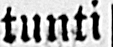tunti
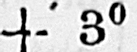+ 3°
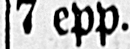7 epp.
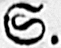S.
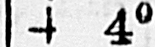+ 4°
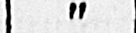"
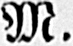M.
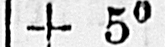+ 5°
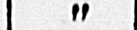"
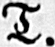T.
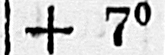+ 7°
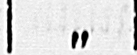"
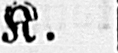K. l
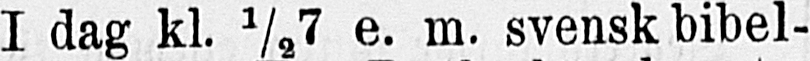I dag k1½.7 e. m. svensk bibel-
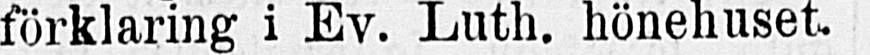förklaring i Ev. Luthl.hönehuset.
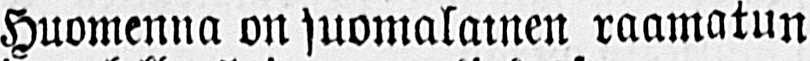Huomenna on suomalainen raamatun
